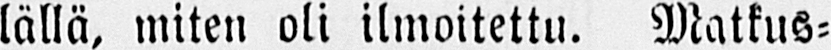lällä, miten oli ilmoitettu. Matkus-
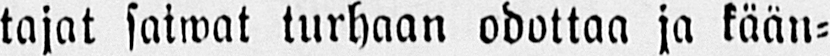tajat saiwat turhaan odottaa ja kään-
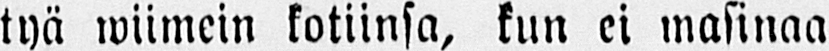tyä wiimein kotiinsa, kun ei masinaa
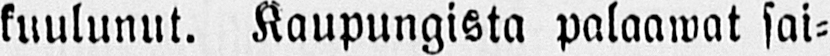kuulunut. Kaupungista palaawat sai-
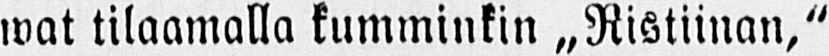wat tilaamalla kumminkin „Ristiinan,"
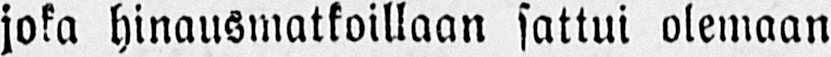joka hinausmatkoillaan sattui olemaan
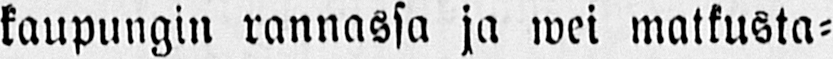kaupungin rannassa ja wei matkusta-
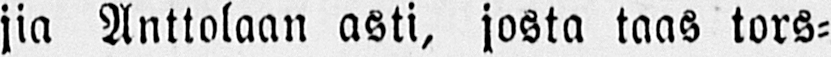jia Anttolaan asti, josta taas tors-
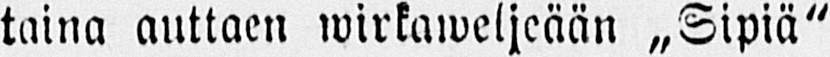taina auttaen wirkaweljeään „Sipiä"
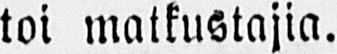toi matkustajia.
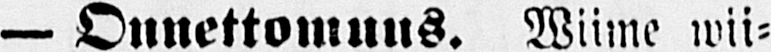— Onnettomuus. Wiime wii-
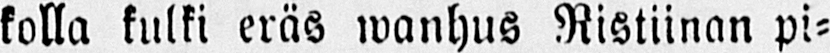kolla kulki eräs wanhus Ristiinan pi-
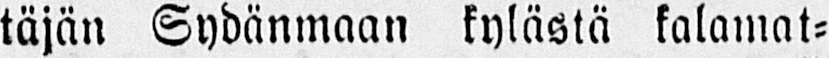täjän Sydänmaan kylästä kalamat-
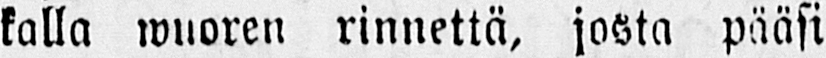kalla wuoren rinnettä, josta pääsi
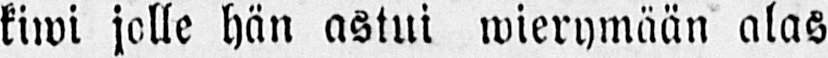kiwi jolle hän astui wierymään alas
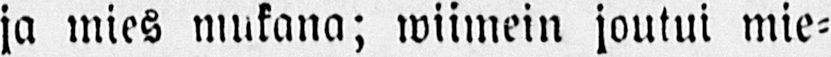ja mies mukana; wiimein joutui mie-
